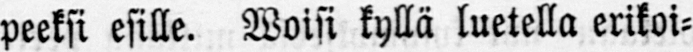peeksi esille. Woisi kyllä luetella erikoi-
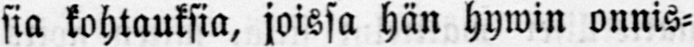sia kohtauksia, joissa hän hywin onnis-
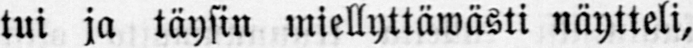tui ja täysin miellyttäwästi näytteli,
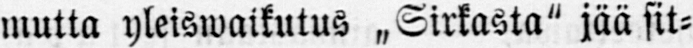mutta yleiswaikutus „ Sirkasta" jää sit-
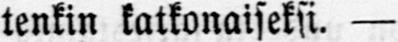tenkin katkonaiseksi. —
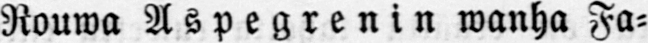Rouwa Aspegrenin wanha Fa-
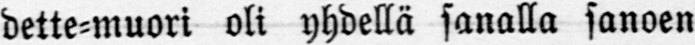dette-muori oli yhdellä sanalla sanoen
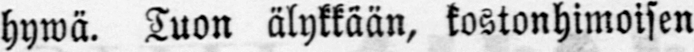hywä. Tuon älykkään, kostonhimoisen
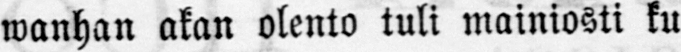wanhan akan olento tuli mainiosti ku
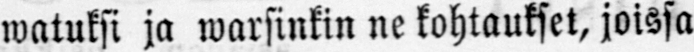watuksi ja warsinkin ne kohtaukset, joissa
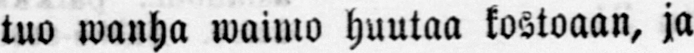tuo wanha waimo huutaa kostoaan, ja
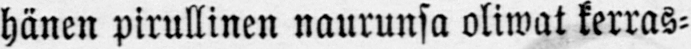hänen pirullinen naurunsa oliwat kerras-
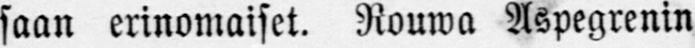saan erinomaiset. Rauwa Aspegrenin
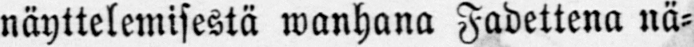näyttelemisestä wanhana Fadettena nä-
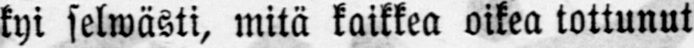kyi selwästi, mitä kaikkea oikea tottunut
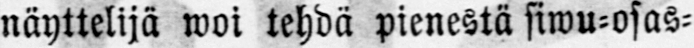näyttelijä woi tehdä pienestä siwu-osas-
